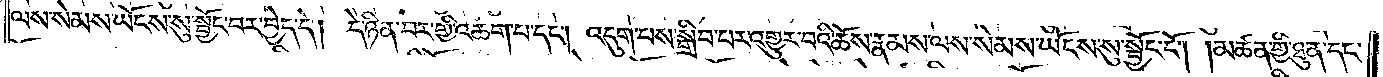ལས་སེམས་ཡོངས་སུ་སྦྱོང་བར་བྱེད་དེ། དེ་ཉིན་བར་གྱི་འཆག་པ་དང༌། འདུག་པས་སྒྲིབ་པར་འགྱུར་བའི་ཆོས་རྣམས་ལས་སེམས་ཡོངས་སུ་སྦྱོང་ངོ༌། །མཚན་གྱི་ཐུན་དང་
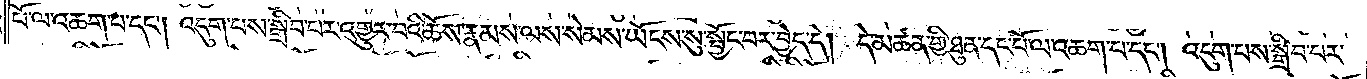པོ་ལ་འཆག་པ་དང༌། འདུག་པས་སྒྲིབ་པར་འགྱུར་བའི་ཆོས་རྣམས་ལས་སེམས་ཡོངས་སུ་སྦྱོང་བར་བྱེད་དེ། དེ་མཚན་གྱི་ཐུན་དང་པོ་ལ་འཆག་པ་དང༌། འདུག་པས་སྒྲིབ་པར་
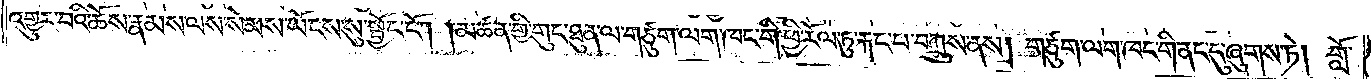འགྱུར་བའི་ཆོས་རྣམས་ལས་སེམས་ཡོངས་སུ་སྦྱོང་ངོ༌། །མཚན་གྱི་གུང་ཐུན་ལ་གཙུག་ལག་ཁང་གི་ཕྱི་རོལ་ཏུ་རྐང་པ་བཀྲུས་ནས། གཙུག་ལག་ཁང་གི་ནང་དུ་ཞུགས་ཏེ། གློ་
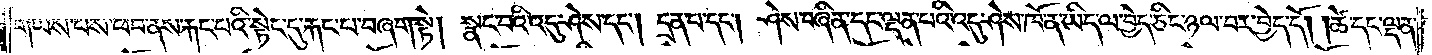གཡས་པས་ཕབ་ནས་རྐང་པའི་སྟེང་དུ་རྐང་པ་བཞག་སྟེ། སྣང་བའི་འདུ་ཤེས་དང༌། དྲན་པ་དང༌། ཤེས་བཞིན་དང་ལྡན་པའི་འདུ་ཤེས་ཁོ་ན་ཡིད་ལ་བྱེད་ཅིང་ཉལ་བར་བྱེད་དོ། །ཚེ་དང་ལྡན་
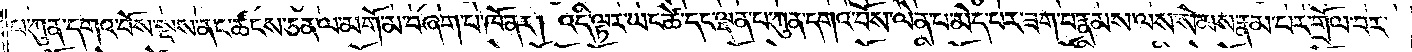པ་ཀུན་དགའ་བོས་སྔས་ནང་ཚངས་ཅན་ལ་མགོ་མ་བཞག་པ་ཁོ་ནར། འདི་ལྟར་ཡང་ཚེ་དང་ལྡན་པ་ཀུན་དགའ་བོས་ལེན་པ་མེད་པར་ཟག་བ་རྣམས་ལས་སེམས་རྣམ་པར་གྲོལ་བར་
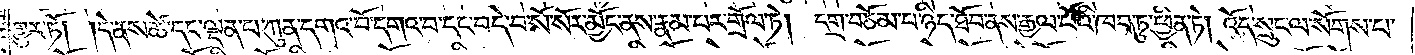གྱུར་ཏོ། །དེ་ནས་ཚེ་དང་ལྡན་པ་ཀུན་དགའ་བོ་དགའ་བ་དང་བདེ་བ་སོ་སོར་མྱོང་ནས་རྣམ་པར་གྲོལ་ཏེ། དགྲ་བཅོམ་པ་ཉིད་ཐོབ་ནས་རྒྱལ་པོའི་ཁབ་ཏུ་ཕྱིན་ཏེ། འོད་སྲུང་ལ་སོགས་པ་
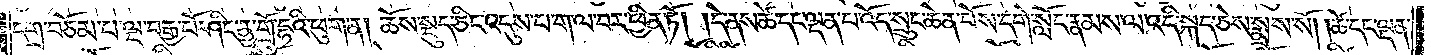དགྲ་བཅོམ་པ་ལྔ་བརྒྱ་པོ་ཤིང་ནྱ་གྲོ་དྷའི་ཕུག་ན། ཆོས་སྡུད་ཅིང་འདུས་པ་ག་ལ་བར་ཕྱིན་ཏོ། །དེ་ནས་ཚེ་དང་ལྡན་པ་འོད་སྲུང་ཆེན་པོས་དགེ་སློང་རྣམས་ལ་འདི་སྐད་ཅེས་སྨྲས་སོ། །ཚེ་དང་ལྡན་
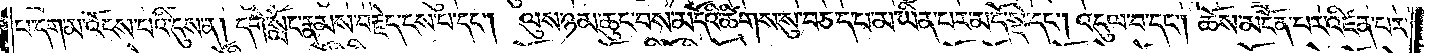པ་དག་མ་འོངས་པའི་དུས་ན། དགེ་སློང་རྣམས་བརྗེད་ངས་པ་དང༌། ལུས་ཉམ་ཆུང་བས་མདོའི་ཚིགས་སུ་བཅད་པ་མ་ཡིན་པར་མདོ་སྡེ་དང༌། འདུལ་བ་དང༌། ཆོས་མངོན་པར་འཛིན་པར་
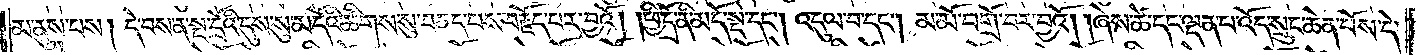མ་ནུས་པས། དེ་བས་ན་སྔ་དྲོའི་དུས་སུ་མདོའི་ཚིགས་སུ་བཅད་པས་བརྗོད་པར་བྱའོ། །ཕྱི་དྲོ་ནི་མདོ་སྡེ་དང༌། འདུལ་བ་དང༌། མ་མོ་བགྲོ་བར་བྱའོ། །ཞེས་ཚེ་དང་ལྡན་པ་འོད་སྲུང་ཆེན་པོས་དེ་
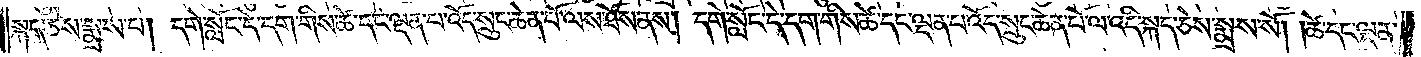སྐད་ཅེས་སྨྲས་པ། དགེ་སློང་དེ་དག་གིས་ཚེ་དང་ལྡན་པ་འོད་སྲུང་ཆེན་པོ་ལས་ཐོས་ནས། དགེ་སློང་དེ་དག་གིས་ཚེ་དང་ལྡན་པ་འོད་སྲུང་ཆེན་པོ་ལ་འདི་སྐད་ཅེས་སྨྲས་སོ། །ཚེ་དང་ལྡན་
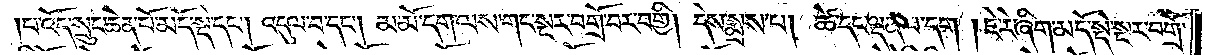པ་འོད་སྲུང་ཆེན་པོ་མདོ་སྡེ་དང༌། འདུལ་བ་དང༌། མ་མོ་དག་ལས་གང་སྔར་བགྲོ་བར་བགྱི། དེས་སྨྲས་པ། ཚེ་དང་ལྡན་པ་དག །ཇེ་རེ་ཞིག་མདོ་སྡེ་སྔར་བགྲོ་
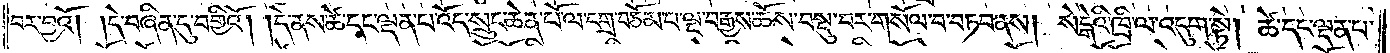བར་བྱའོ། །དེ་བཞིན་དུ་བགྱིའོ། །དེ་ནས་ཚེ་དང་ལྡན་པ་འོད་སྲུང་ཆེན་པོ་ལ་དགྲ་བཅོམ་པ་ལྔ་བརྒྱས་ཆོས་བསྡུ་བར་གསོལ་བ་བཏབ་ནས། སེངྒེའི་ཁྲི་ལ་འདུག་སྟེ། ཚེ་དང་ལྡན་པ་
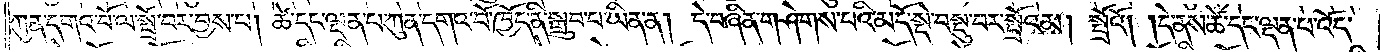ཀུན་དགའ་བོ་ལ་སྤྲོ་བར་བྱས་པ། ཚེ་དང་ལྡན་པ་ཀུན་དགའ་བོ་ཁྱོད་ནི་སྒྲུབ་པ་ཡིན་ན། དེ་བཞིན་གཤེགས་པའི་མདོ་སྡེ་བསྡུ་བར་སྤྲོའམ། སྤྲོའོ། །དེ་ནས་ཚེ་དང་ལྡན་པ་འོད་
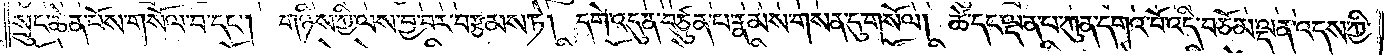སྲུང་ཆེན་པོས་གསོལ་བ་དང༌། གཉིས་ཀྱི་ལས་བྱ་བར་བརྩམས་ཏེ། དགེ་འདུན་བཙུན་པ་རྣམས་གསན་དུ་གསོལ། ཚེ་དང་ལྡན་པ་ཀུན་དགའ་བོ་འདི་བཅོམ་ལྡན་འདས་ཀྱི་
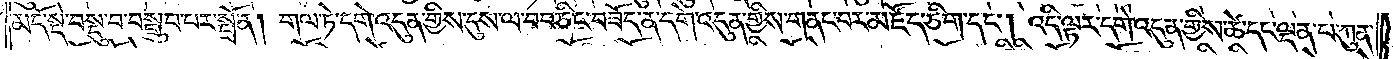མདོ་སྡེ་བསྡུ་བ་བསྒྲུབ་པར་སྤྲོ་ན། གལ་ཏེ་དགེ་འདུན་གྱིས་དུས་ལ་བབ་ཅིང་བཟོད་ན་དགེ་འདུན་གྱིས་གནང་བར་མཛོད་ཅིག་དང༌། འདི་ལྟར་དགེ་འདུན་གྱིས་ཚེ་དང་ལྡན་པ་ཀུན་
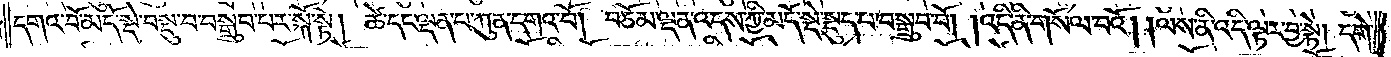དགའ་བོ་མདོ་སྡེ་བསྡུ་བ་བསྒྲུབ་པར་སྐོ་སྟེ། ཚེ་དང་ལྡན་པ་ཀུན་དགའ་བོ། བཅོམ་ལྡན་འདས་ཀྱི་མདོ་སྡེ་སྡུད་པ་བསྒྲུབ་བོ། །འདི་ནི་གསོལ་བའོ། །ལས་ནི་འདི་ལྟར་བྱ་སྟེ། དགེ་
